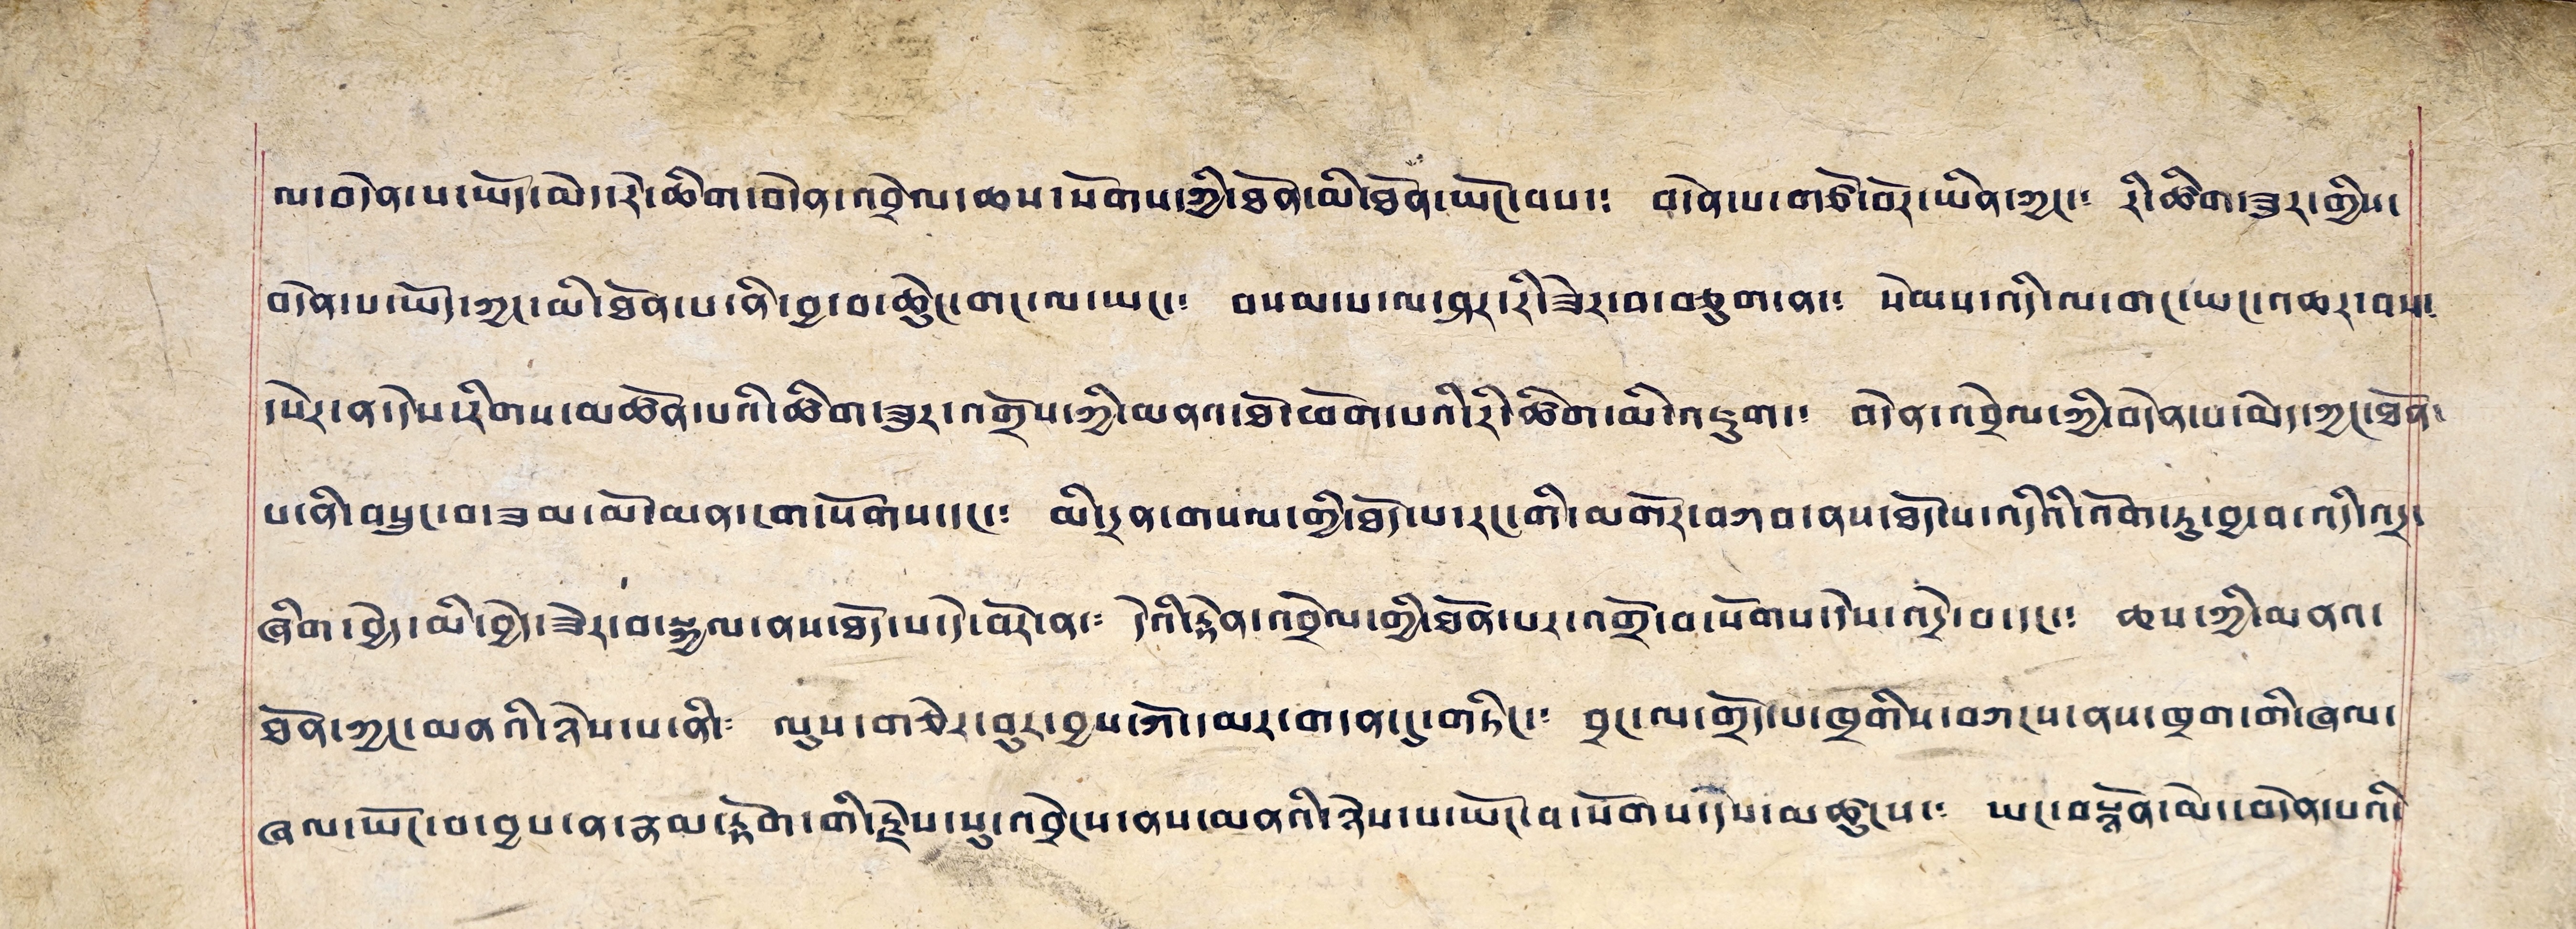ལ་བདེན་པ་ཡོད་མེད་རེ་ཆིག་བདེན་འབྲེལ་ཆས་སོགས་ཀྱི་ཐོན་མི་ཐོན་ཡོང་བས་༴ བདེན་པ་གཙོ་བོར་ཡིན་ཀྱང་༴ རི་ཚིག་ཟུར་གྱིས་
བདེན་པ་ཡོད་ཀྱང་མི་ཐོན་པ་ནི་བྱ་བ་ཆེུང་གང་ལ་ཡང་༴ བསམ་པ་ལ་ཤར་རི་ཟེར་བ་བཅུག་ན་༴ སེམས་འདི་ལ་གང་ཡང་འཆར་བས༴
དཔེར་ན་དེས་རིགས་མཚོན་པའི་ཚིག་ཟུར་འགྲོས་ཀྱི་མནའ་ཐོ་ཕོག་པའི་རི་ཚིག་མི་འཇུག་༴ བདེན་འབྲེལ་ཀྱི་བདེན་པ་མེད་ཀྱང་ཐོན་
པ་ནི་བསྲུང་བ་ཟམ་མོ་མན་ངག་སོགས་དང་༴ མི་དྲན་གསལ་གྱི་ཐོད་པ་རང་གི་མགོར་བཀབ་ནས་ཐོད་པ་འདིའི་འོག་ཏུ་བྱ་བ་འདི་འདྲ་
ཞིག་བྱེད་མི་བྱེད་ཟེར་བ་སྐྱལ་ནས་ཐོད་པ་དེ་བོར་ན་༴ དེའི་རྟེན་འབྲེལ་གྱི་ཐོན་པར་འགྲོ་བ་སོགས་དེས་འདྲེ་བ་དང་༴ ཆས་ཀྱི་མནའ་
ཐོན་ཀྱང་མནའི་ཉེས་པ་ནི་༴ ལུས་གཅེར་བུར་བྱས་ཀོ་དམར་གདན་དུ་གཏིང་༴ བྲང་ལ་གྲོད་པ་ཁྲགིས་བཀངས་ནས་ཁྲག་གི་ཞལ་
ཞལ་ཡོང་བ་བྱས་ན་རྣམ་རྟོག་གི་རྗེས་སུ་འབྲེངས་ནས་མནའི་ཉེས་པ་ཡོང་བ་སོགས་དེས་མཚུངས་༴ ཡང་བསྙོན་མེད་བདེན་པའི་
